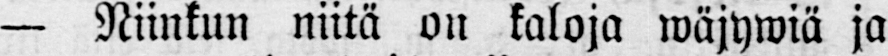— Niinkun niitä on kaloja wäjywiä ja
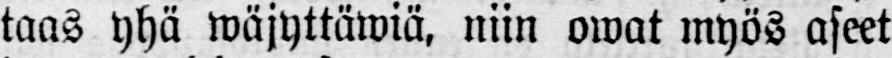taas yhä wäjyttäwiä, niin owat myös aseet
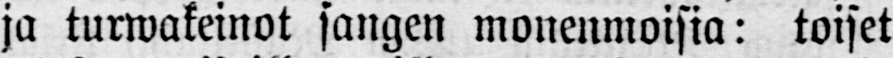ja turwakeinot sangen monenmoisia: toiset
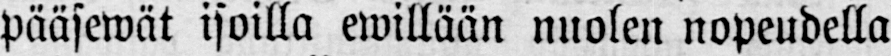pääsewät isoilla ewillään nuolen nopeudella
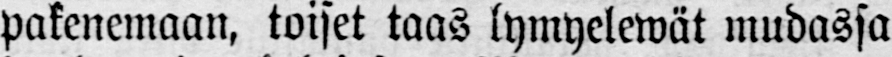pakenemaan, toiset taas lymyelewät mudassa
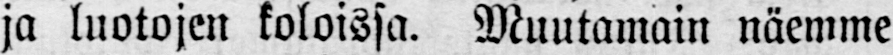ja luotojen koloissa. Muutamani näemme
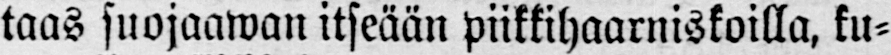taas suojaawan itseään piikkihaarniskoilla, ku-
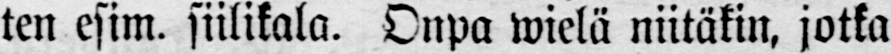ten esim. siilikala. Onpa wielä niitäkin, jotka
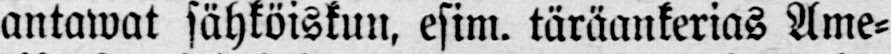antawat sähköiskun, esim. täräankerias Ame-
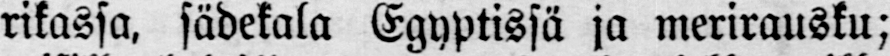rikassa, sädekala Egyptissä ja merirausku;
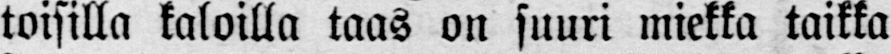toisilla kaloilla taas on suuri miekka taikka
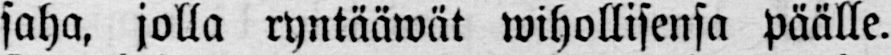saha, jolla ryntääwät wihollisensa päälle.
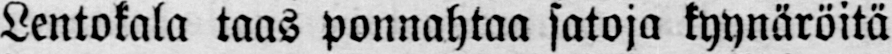Lentokala taas ponnahtaa satoja kyynäröitä
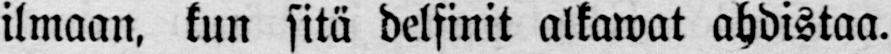ilmaan, kun sitä delfinit alkawat ahdistaa.
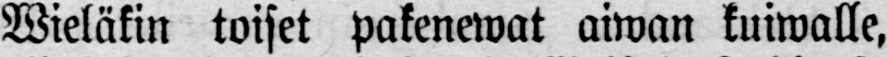Wieläkin toiset pakenewat aiwan kuiwalle,
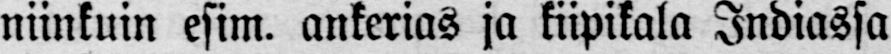niinkuin esim. ankerias ja kiipikala Indiassa
